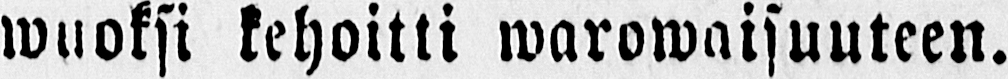wuoksi kehoitti warowaisuuteen.
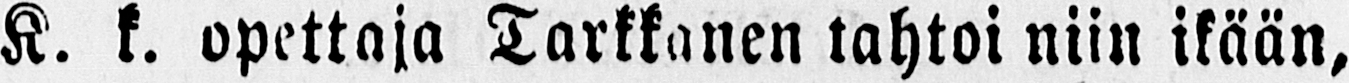K. k. opettaja Tarkkanen tahtoi niin ikään,
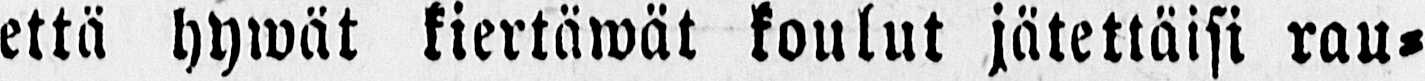että hywät kiertäwät koulut jätettäisi rau-
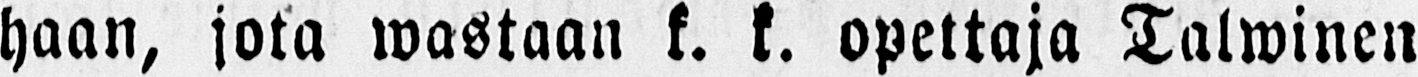haan, jota wastaan k. k. opettaja Talwinen
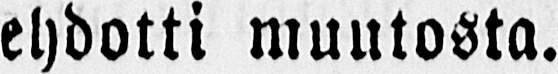ehdotti muutosta.
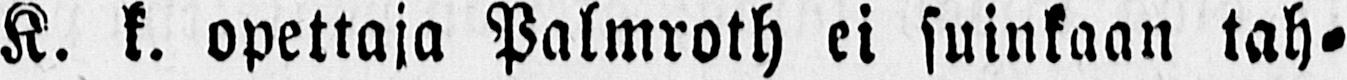K. k. opettaja Palmroth ei suinkaan tah-
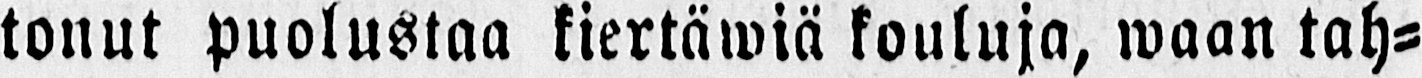tonut puolustaa kiertäwiä kouluja, waan tah-
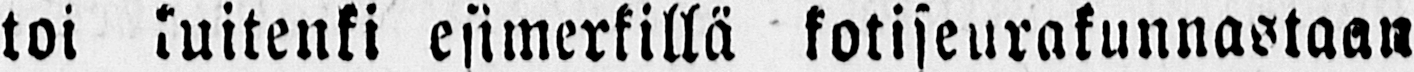toi kuitenki esimerkillä kotiseurakunnastaan
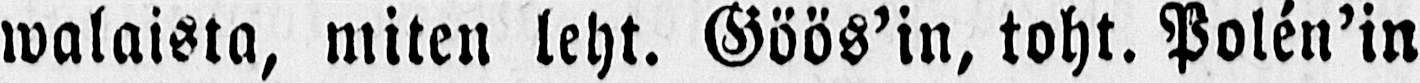walaista, miten leht. Göös’in, toht. Polén’in
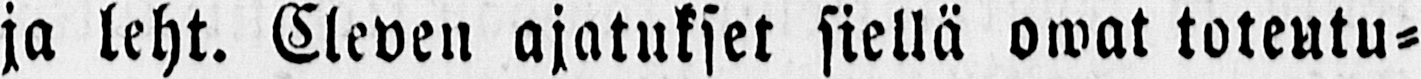ja leht. Cleven ajatukset siellä owat toteutu-
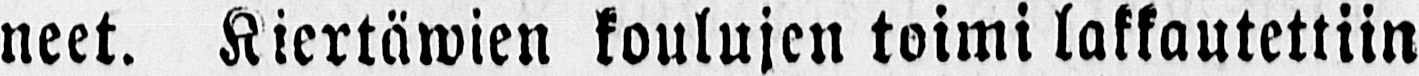neet. Kiertäwien koulujen toimi lakkautettiin
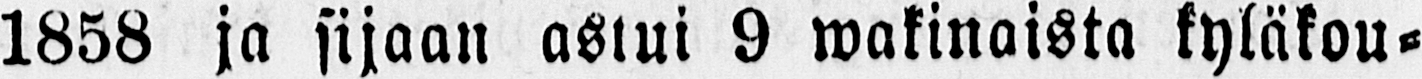1858 ja sijaan astui 9 wakinaista kyläkou-
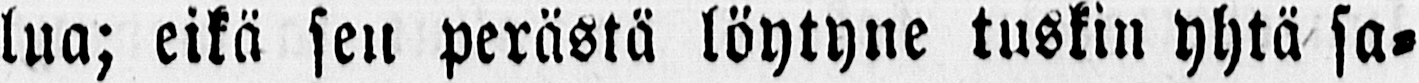lua; eikä sen perästä löytyne tuskin yhtä sa-
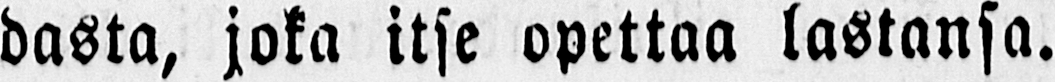dasta, joka itse opettaa lastansa.
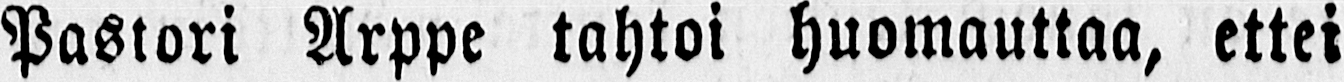Pastori Arppe tahtoi huomauttaa, ettei
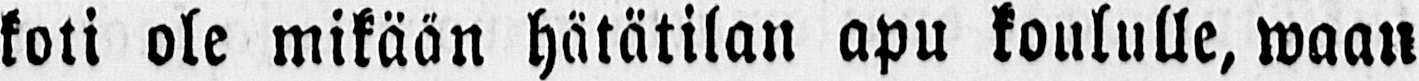koti ole mikään hätätilan apu koululle, waan
